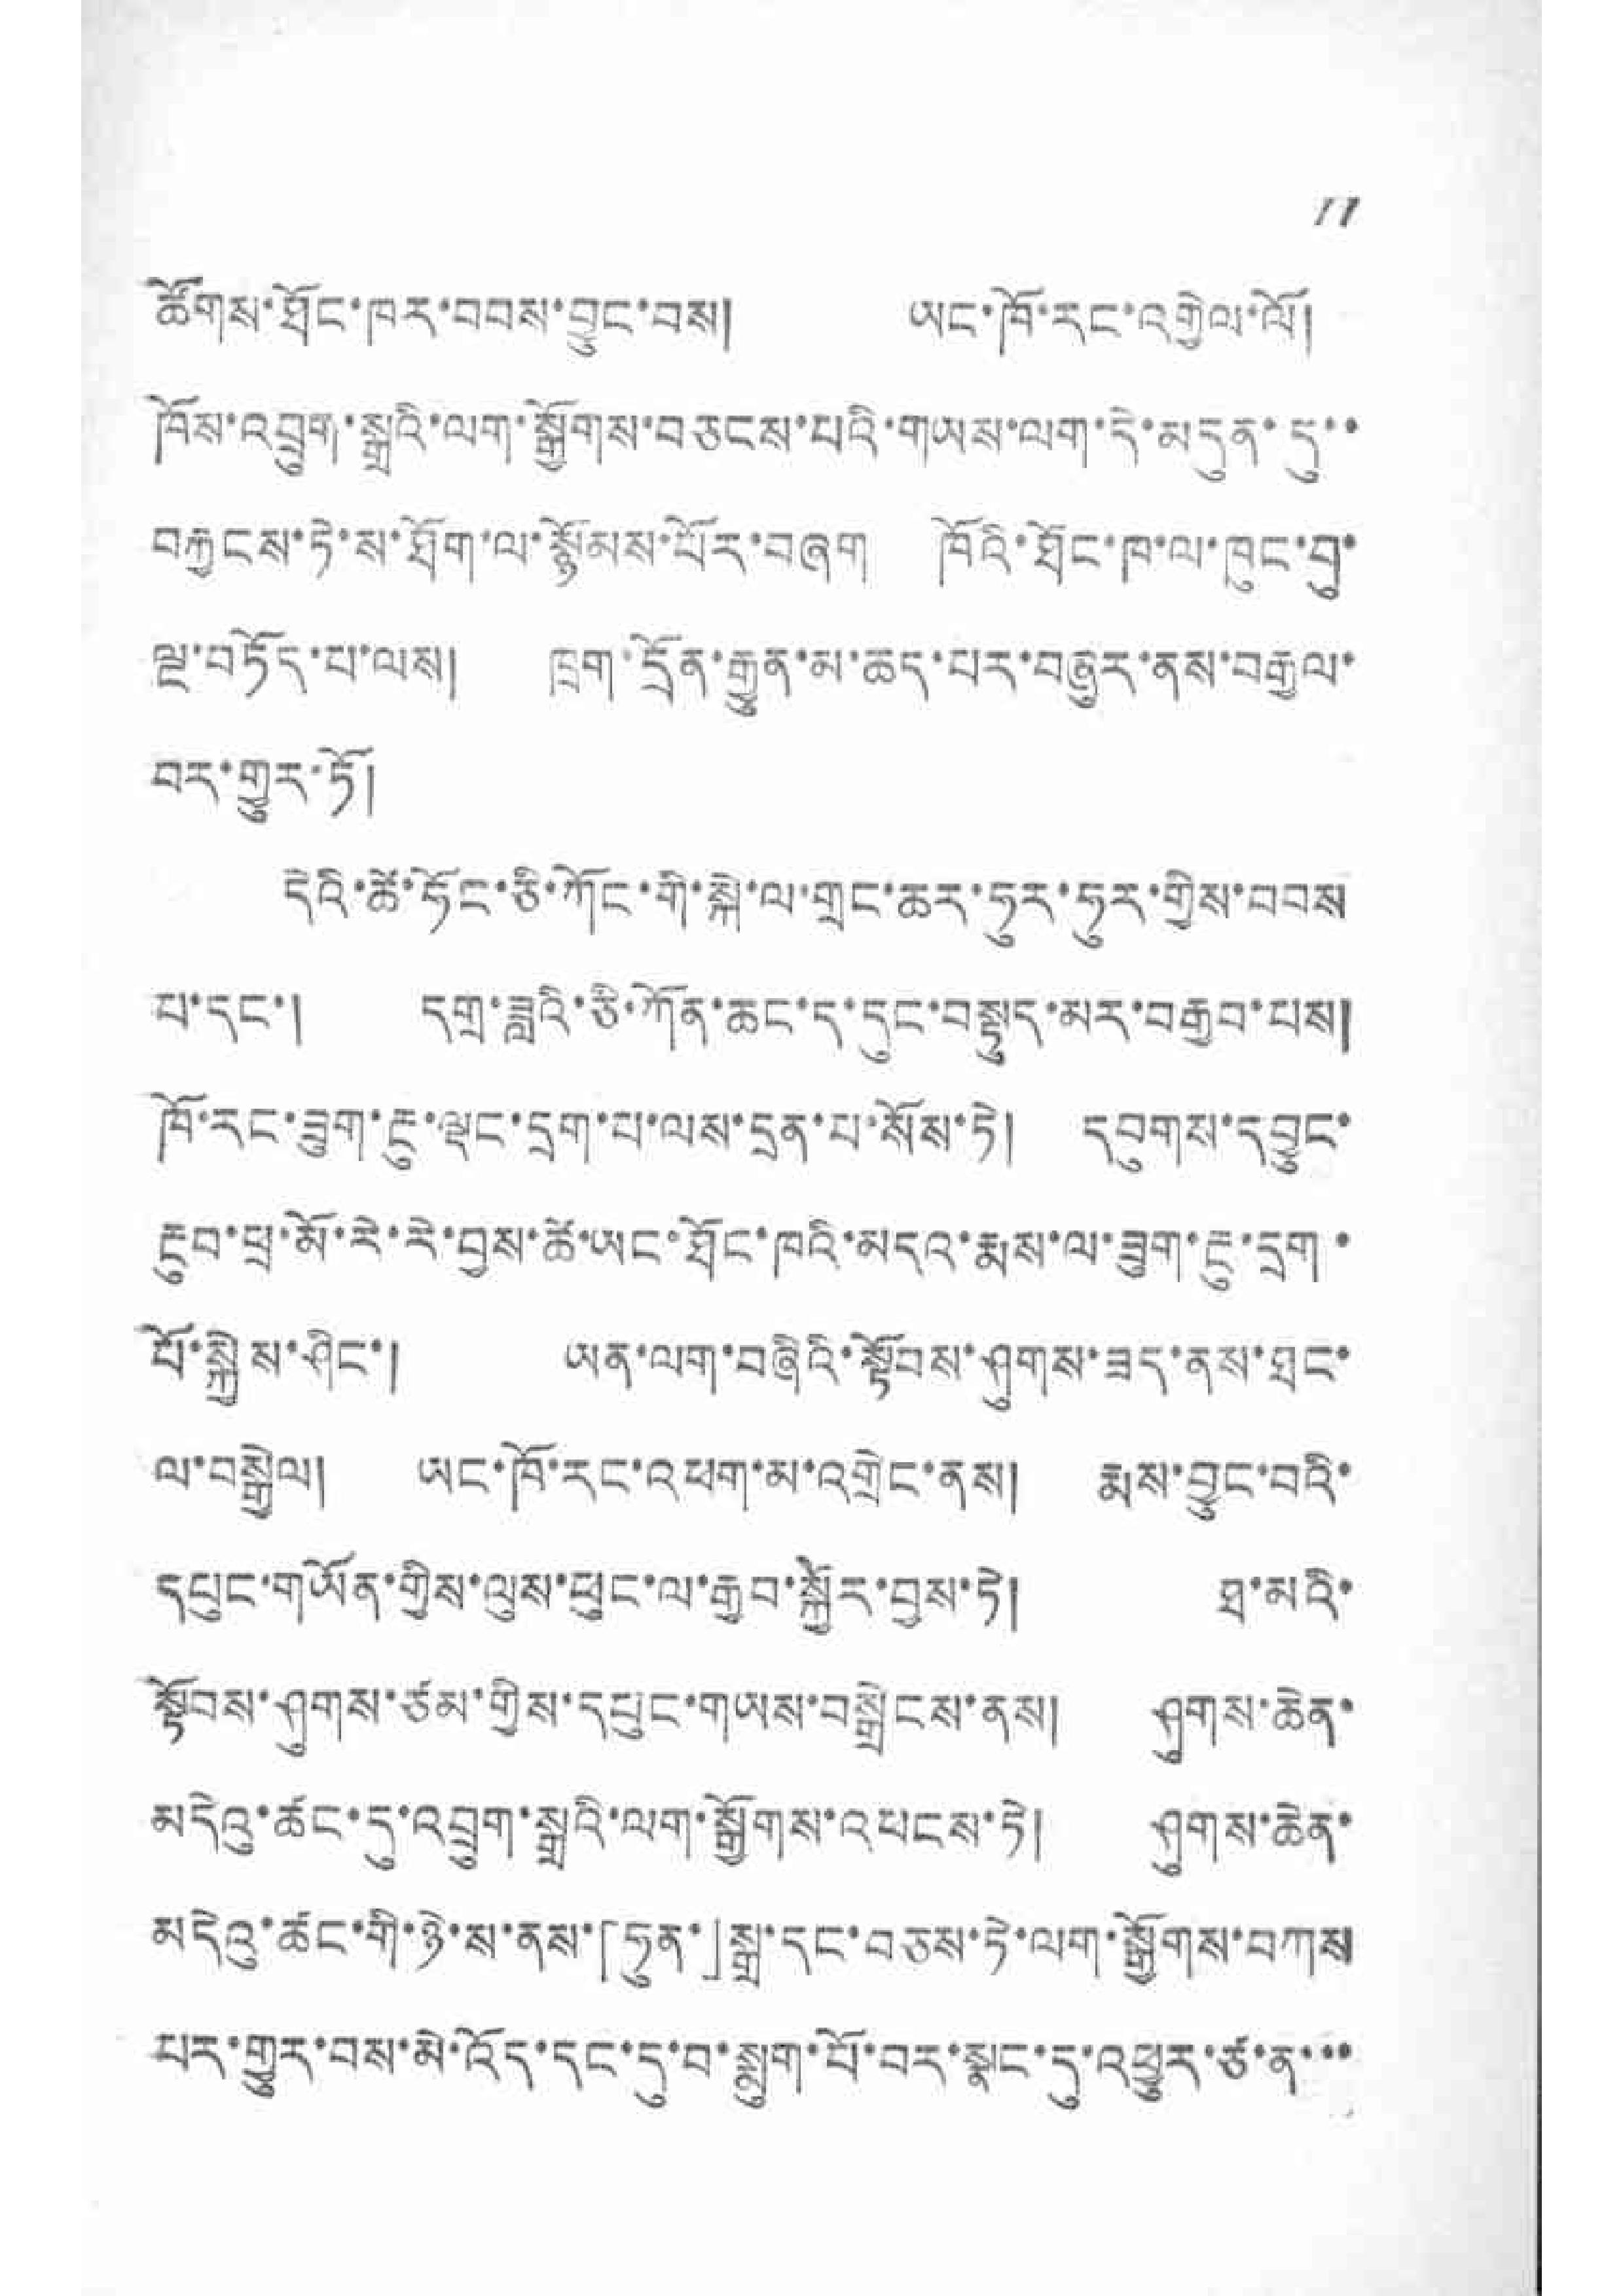11
ཚོགས་ཐོང་ཁར་བབས་བྱུང་བས། ཡང་ཁོ་རང་འགྱེལ་ལོ།
ཁོས་འབྲུག་སྒྲའི་ལག་སྒྱོགས་བཅངས་པའི་གཡས་ལག་དེ་མདུན་དུ་་
བརྐྱངས་ཏེ་ས་ཐོག་ལ་སྙོམས་པོར་བཞག ཁོའི་ཐོང་ཁ་ལ་ཁུང་བུ་
ལྔ་བཏོད་པ་ལས། ཁྲག་དོན་རྒྱུན་མ་ཆད་པར་བཞུར་ནས་བརྒྱལ་
བར་གྱུར་ཏོ།
དེའི་ཚེ་ཧོང་ཅི་ཀོང་གི་སྐེ་ལ་གྲང་ཆར་ཧུར་ཧུར་གྱེས་བབས
པ་དང་། དགྲ་ཟླའི་ཅི་ཀོན་ཆང་ད་དུང་བསྟུད་མར་བརྒྱབ་པས།
ཁོ་རང་ཟུག་རྔུ་ལྡང་དྲག་པ་ལས་དྲན་པ་སོས་ཏེ། དབུགས་དབྱུང་
རྔུབ་ཕྲ་མོ་རེ་རེ་བྱས་ཚེ་ཡང་ཐོང་ཁའི་མདའ་རྨས་ལ་ཟུག་རྔུ་དྲག་
པོ་སྐྱེས་ཤིང་། ཡན་ལག་བཞིའ་སྟོབས་ཤུགས་ཟད་ནས་ཐང་
ལ་བསྐྱེལ། ཡང་ཁོ་རང་འཕག་མ་འགྲེང་ནས། རྨས་བྱུང་བའི་
དཔུང་གཡོན་གྱིས་ལུས་ཕུང་ལ་རྒྱབ་སྐྱོར་བྱས་ཏེ། ཐ་མའི་
སྟོབས་ཤུགས་ཙམ་གྱིས་དཔུང་གཡས་བསྒྲེངས་ནས། ཤུགས་ཆེན་
མདེའུ་ཚང་དུ་འབྲུག་སྒྲའི་ལག་སྒྱོགས་འཕངས་ཏེ། ཤུགས་ཆེན་
མདེའུ་ཚང་གི་ཉེ་ས་ནས་「ཧུན་」སྒྲ་དང་བཅས་ཏེ་ལག་སྒྱོགས་བཀས
པར་གྱུར་བས་མེ་འོད་དང་དུ་བ་སྨུག་པོ་བར་སྣང་དུ་འཕྱུར་ཙ་ན་་་
